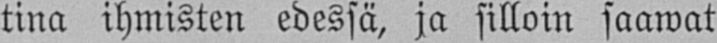tina ihmisten edessä, ja silloin saawat
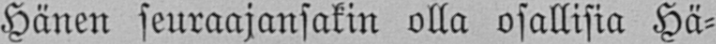Hänen seuraajansakin olla osallisia Hä-
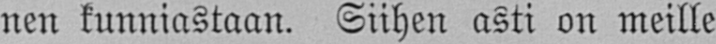nen kunniastaan. Siihen asti on meille
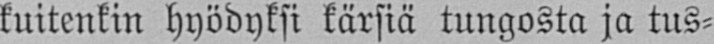kuitenkin hyödyksi kärsiä tungosta ja tus-
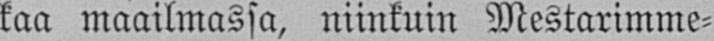kaa maailmassa, niinkuin Mestarimme-
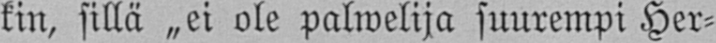kin, sillä „ei ole palwelija suurempi Her-
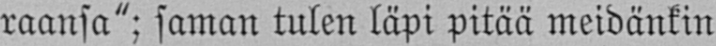raansa"; saman tulen läpi pitää meidänkin
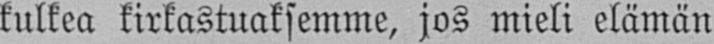kulkea kirkastuaksemme, jos mieli elämän
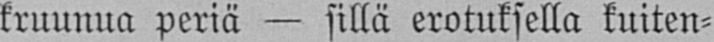kruunua periä — sillä erotuksella kuiten-
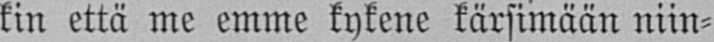kin että me emme kykene kärsimään niin-
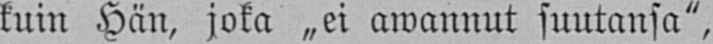kuin Hän, joka „ei awannut suutansa",
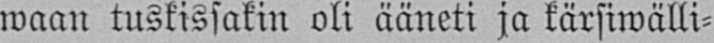waan tuskissakin oli ääneti ja kärsiwälli-
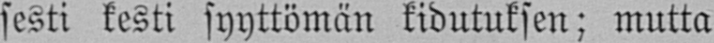sesti kesti syyttömän kidutuksen; mutta
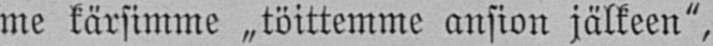me kärsimme „töittemme ansion jälkeen",
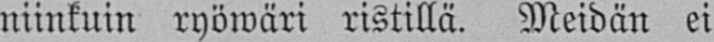niinkuin ryöwäri ristillä. Meidän ei
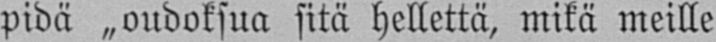pidä „oudoksua sitä hellettä, mikä meille
